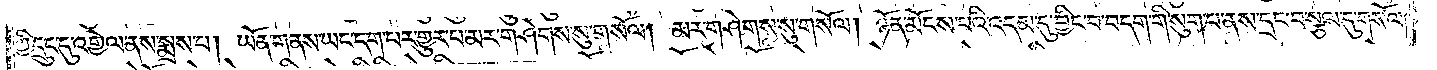ཀྱི་དྲུང་དུ་འགྱེལ་ནས་སྨྲས་པ། ཡོན་གནས་ཡང་དག་པར་གྱུར་པ་མར་གཤེགས་སུ་གསོལ། མར་གཤེགས་སུ་གསོལ། ཉོན་མོངས་པའི་འདམ་དུ་བྱིང་བ་བདག་གི་སུག་པ་ནས་དྲང་བ་སྩལ་དུ་གསོལ།
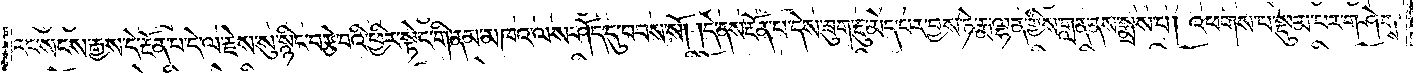རང་སངས་རྒྱས་དེ་རྔོན་པ་དེ་ལ་རྗེས་སུ་སྙིང་བརྩེ་བའི་ཕྱིར་སྟེང་གི་ནམ་མཁའ་ལས་ཤོད་དུ་བབས་སོ། །དེ་ནས་རྔོན་པ་དེས་ཟུག་རྔུ་མེད་པར་བྱས་ཏེ་རྨ་ལྷན་གྱིས་གླན་ནས་སྨྲས་པ། འཕགས་པ་སྡུམ་པར་གཤེགས་
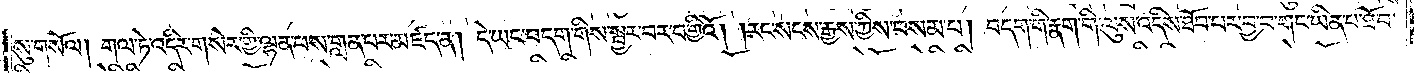སུ་གསོལ། གལ་ཏེ་འདིར་གསེར་གྱི་ལྷན་པས་གླན་པར་མཛད་ན། དེ་ཡང་བདག་གིས་སྦྱར་བར་བགྱིའོ། །རང་སངས་རྒྱས་ཀྱིས་བསམ་པ། བདག་གི་རྣག་གི་ལུས་འདིས་ཐོབ་པར་བྱ་བ་གང་ཡིན་པ་ཐོབ་
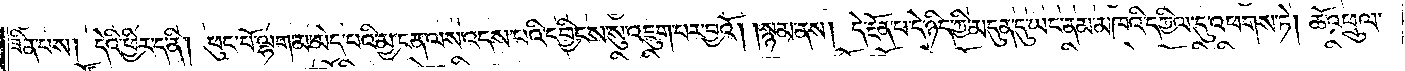ཟིན་པས། དེའི་ཕྱིར་ད་ནི། ཕུང་པོ་ལྷག་མ་མེད་པའི་མྱ་ངན་ལས་འདས་པའི་དབྱིངས་སུ་འཇུག་པར་བྱའོ། །སྙམ་ནས། དེ་རྔོན་པ་དེ་ཉིད་ཀྱི་མདུན་དུ་ཡང་ནམ་མཁའི་དཀྱིལ་དུ་འཕགས་ཏེ། ཆོ་འཕྲུལ་
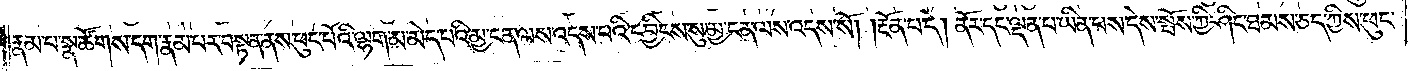རྣམ་པ་སྣ་ཚོགས་དག་རྣམ་པར་བསྟན་ནས་ཕུང་པོའི་ལྷག་མ་མེད་པའི་མྱ་ངན་ལས་འདས་པའི་དབྱིངས་སུ་མྱ་ངན་ལས་འདས་སོ། །རྔོན་པ་དེ། ནོར་དང་ལྡན་པ་ཡིན་པས་དེས་སྤོས་ཀྱི་ཤིང་ཐམས་ཅད་ཀྱིས་ཕུང་
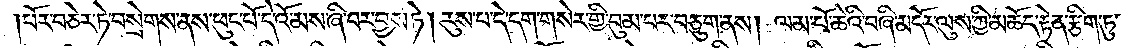པོར་བཅེར་ཏེ་བསྲེགས་ནས་ཕུང་པོ་དེ་འོ་མས་ཞི་བར་བྱས་ཏེ། རུས་པ་དེ་དག་གསེར་གྱི་བུམ་པར་བཅུག་ནས། ལམ་པོ་ཆེའི་བཞི་མདོར་ལུས་ཀྱི་མཆོད་རྟེན་རྩིག་ཏུ་
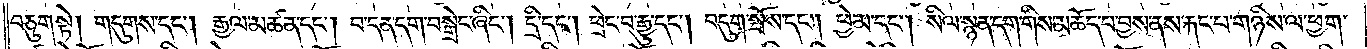བཅུག་སྟེ། གདུགས་དང༌། རྒྱལ་མཚན་དང༌། བ་དན་དག་བསྒྲེང་ཞིང༌། དྲི་དང༌། ཕྲེང་བ་རྒྱུ་དང༌། བདུག་སྤོས་དང༌། ཕྱེ་མ་དང༌། སིལ་སྙན་དག་གིས་མཆོད་པ་བྱས་ནས་རྐང་པ་གཉིས་ལ་ཕྱག་
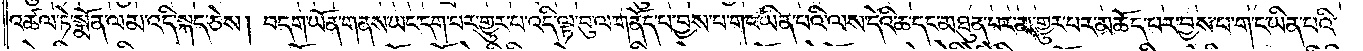འཚལ་ཏེ་སྨོན་ལམ་འདི་སྐད་ཅེས། བདག་ཡོན་གནས་ཡང་དག་པར་གྱུར་པ་འདི་ལྟ་བུ་ལ་གནོད་པ་བྱས་པ་གང་ཡིན་པའི་ལས་དེའི་ཆ་དང་མཐུན་པར་མ་གྱུར་པར་མཆོད་པར་བྱས་པ་གང་ཡིན་པའི་
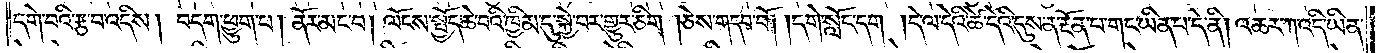དགེ་བའི་རྩ་བ་འདིས། བདག་ཕྱུག་པ། ནོར་མང་བ། ལོངས་སྤྱོད་ཆེ་བའི་ཁྱིམ་དུ་སྐྱེ་བར་གྱུར་ཅིག །ཅེས་གདབ་བོ། །དགེ་སློང་དག །དེ་ལ་དེའི་ཚེ་དེའི་དུས་ན་རྔོན་པ་གང་ཡིན་པ་དེ་ནི། འཆར་ཀ་འདི་ཡིན་
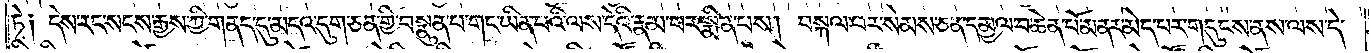ཏེ༑ དེས་རང་སངས་རྒྱས་ཀྱི་གནད་དུ་མདའ་དུག་ཅན་གྱི་བསྣུན་པ་གང་ཡིན་པའི་ལས་དེའི་རྣམ་པར་སྨིན་པས། བསྐལ་པར་སེམས་ཅན་དམྱལ་བ་ཆེན་པོ་མནར་མེད་པར་གདུངས་ནས་ལས་དེ་
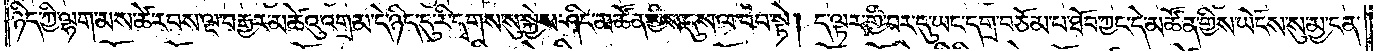ཉིད་ཀྱི་ལྷག་མས་ཚེ་རབས་ལྔ་བརྒྱར་མཚེའུ་འགྲམ་དེ་ཉིད་དུ་རི་དྭགས་སུ་སྐྱེས་ཤིང་མཚོན་གྱིས་དུས་ལ་བབ་སྟེ། ད་ལྟར་གྱི་བར་དུ་ཡང་དགྲ་བཅོམ་པ་ཐོབ་ཀྱང་དེ་མཚོན་གྱིས་ཡོངས་སུ་མྱ་ངན་
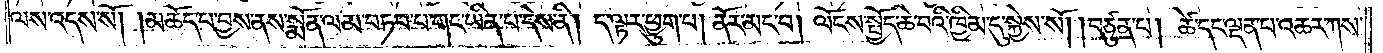ལས་འདས་སོ། །མཆོད་པ་བྱས་ནས་སྨོན་ལམ་བཏབ་པ་གང་ཡིན་པ་དེས་ནི། ད་ལྟར་ཕྱུག་པ། ནོར་མང་བ། ལོངས་སྤྱོད་ཆེ་བའི་ཁྱིམ་དུ་སྐྱེས་སོ། །བཙུན་པ། ཚེ་དང་ལྡན་པ་འཆར་ཀས་
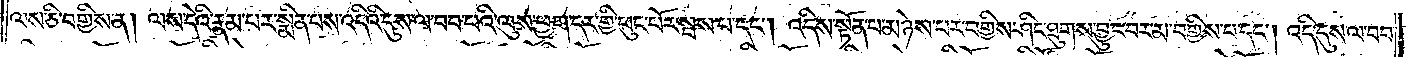ལས་ཅི་བགྱིས་ན། ལས་དེའི་རྣམ་པར་སྨིན་པས་འདིའི་དུས་ལ་བབ་པའི་ལུས་ཕྱག་དར་གྱི་ཕུང་པོར་སྦས་པ་དང༌། འདིས་སྟོན་པ་མཉེས་པར་བགྱིས་ཤིང་ཐུགས་བྱུང་བར་མ་བགྱིས་པ་དང༌། འདི་དུས་ལ་བབ་
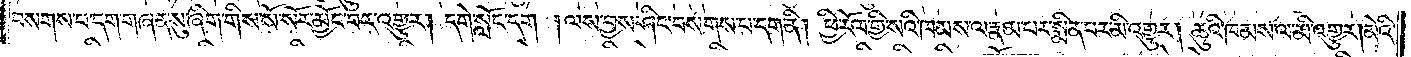བསགས་པ་དག་གཞན་སུ་ཞིག་གིས་སོ་སོར་མྱོང་བར་འགྱུར། དགེ་སློང་དག །ལས་བྱས་ཤིང་བསགས་པ་དག་ནི། ཕྱི་རོལ་གྱི་སའི་ཁམས་ལ་རྣམ་པར་སྨིན་པ་མི་འགྱུར། ཆུའི་ཁམས་ལ་མི་འགྱུར། མེའི་
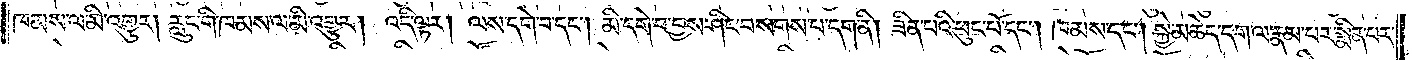ཁམས་ལ་མི་འགྱུར། རླུང་གི་ཁམས་ལ་མི་འགྱུར། འདི་ལྟར། ལས་དགེ་བ་དང༌། མི་དགེ་བ་བྱས་ཤིང་བསགས་པ་དག་ནི། ཟིན་པའི་ཕུང་པོ་དང༌། ཁམས་དང༌། སྐྱེ་མཆེད་དག་ལ་རྣམ་པར་སྨིན་པར་
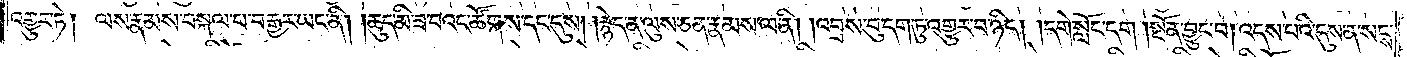འགྱུར་ཏེ། ལས་རྣམས་བསྐལ་པ་བརྒྱར་ཡང་ནི། །ཆུད་མི་ཟ་བའང་ཚོགས་དང་དུས། །རྙེད་ན་ལུས་ཅན་རྣམས་ལ་ནི། །འབྲས་བུ་དག་ཏུ་འགྱུར་བ་ཉིད། །དགེ་སློང་དག །སྔོན་བྱུང་བ། འདས་པའི་དུས་ན་སངས་
